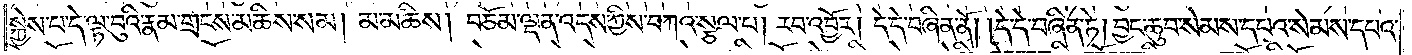སྐྱེས་པ་དེ་ལྟ་བུའི་རྣམ་གྲངས་མཆིས་སམ། མ་མཆིས། བཅོམ་ལྡན་འདས་ཀྱིས་བཀའ་སྩལ་བ། རབ་འབྱོར། དེ་དེ་བཞིན་ནོ། །དེ་དེ་བཞིན་ཏེ། བྱང་ཆུབ་སེམས་དཔའ་སེམས་དཔའ་
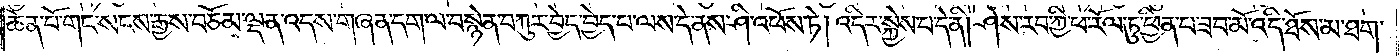ཆེན་པོ་གང་སངས་རྒྱས་བཅོམ་ལྡན་འདས་གཞན་དག་ལ་བསྙེན་བཀུར་བྱེད་བྱེད་པ་ལས་དེ་ནས་ཤི་འཕོས་ཏེ། འདིར་སྐྱེས་པ་དེ་ནི། ཤེས་རབ་ཀྱི་ཕ་རོལ་ཏུ་ཕྱིན་པ་ཟབ་མོ་འདི་ཐོས་མ་ཐག་
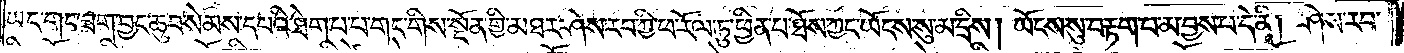ཡང་གང་ཟག་བྱང་ཆུབ་སེམས་དཔའི་ཐེག་པ་པ་གང་གིས་སྔོན་གྱི་མཐར་ཤེས་རབ་ཀྱི་ཕ་རོལ་ཏུ་ཕྱིན་པ་ཐོས་ཀྱང་ཡོངས་སུ་མ་དྲིས། ཡོངས་སུ་བརྟག་པ་མ་བྱས་པ་དེ་ནི། ཤེས་རབ་
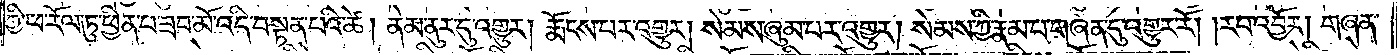ཀྱི་ཕ་རོལ་ཏུ་ཕྱིན་པ་ཟབ་མོ་འདི་བསྟན་པའི་ཚེ། ནེམ་ནུར་དུ་འགྱུར། རྨོངས་པར་འགྱུར། སེམས་ཞུམ་པར་འགྱུར། སེམས་ཀྱི་རྣམ་པ་གཞན་དུ་འགྱུར་རོ། །རབ་འབྱོར། གཞན་
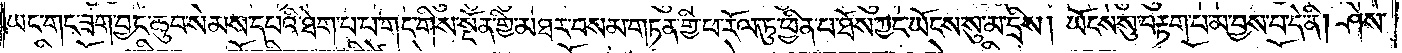ཡང་གང་ཟག་བྱང་ཆུབ་སེམས་དཔའ་ཐེག་པ་པ་གང་གིས་སྔོན་གྱི་མཐར་བསམ་གཏན་གྱི་ཕ་རོལ་ཏུ་ཕྱིན་པ་ཐོས་ཀྱང་ཡོངས་སུ་མ་དྲིས། ཡོངས་སུ་བརྟག་པ་མ་བྱེས་པ་དེ་ནི། ཤེས་
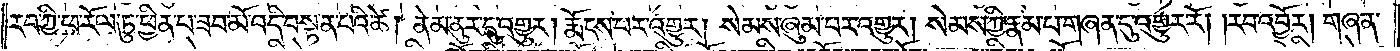རབ་ཀྱི་ཕ་རོལ་ཏུ་ཕྱིན་པ་ཟབ་མོ་འདི་བསྟན་པའི་ཚེ། ནེམ་ནུར་དུ་འགྱུར། རྨོངས་པར་འགྱུར། སེམས་ཞུམ་པར་འགྱུར། སེམས་ཀྱི་རྣམ་པ་གཞན་དུ་འགྱུར་རོ། །རབ་འབྱོར། གཞན་
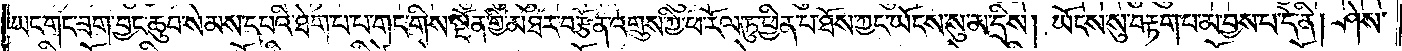ཡང་གང་ཟག་བྱང་ཆུབ་སེམས་དཔའ་ཐེག་པ་པ་གང་གིས་སྔོན་གྱི་མཐར་བརྩོན་འགྲུས་ཀྱི་ཕ་རོལ་ཏུ་ཕྱིན་པ་ཐོས་ཀྱང་ཡོངས་སུ་མ་དྲིས། ཡོངས་སུ་བརྟག་པ་མ་བྱས་པ་དེ་ནི། ཤེས་
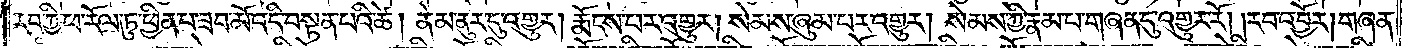རབ་ཀྱི་ཕ་རོལ་ཏུ་ཕྱིན་པ་ཟབ་མོ་འདི་བསྟན་བའི་ཚེ། ནེམ་ནུར་དུ་འགྱུར། རྨོངས་པར་འགྱུར། སེམས་ཞུམ་པར་འགྱུར། སེམས་ཀྱི་རྣམ་པར་གཞན་དུ་འགྱུར་རོ། །རབ་འབྱོར། གཞན་
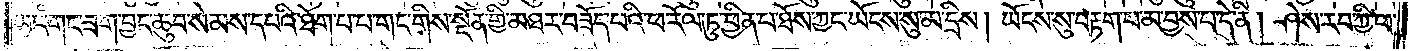ཡང་གང་ཟག་བྱང་ཆུབ་སེམས་དཔའི་ཐེག་པ་པ་གང་གིས་སྔོན་གྱི་མཐར་བཟོད་པའི་ཕ་རོལ་ཏུ་ཕྱིན་པ་ཐོས་ཀྱང་ཡོངས་སུ་མ་དྲིས། ཡོངས་སུ་བརྟག་པ་མ་བྱས་པ་དེ་ནི། ཤེས་རབ་ཀྱི་ཕ་
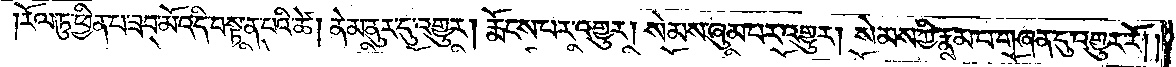རོལ་ཏུ་ཕྱིན་པ་ཟབ་མོ་འདི་བསྟན་པའི་ཚེ། ནེམ་ནུར་དུ་འགྱུར། རྨོངས་པར་འགྱུར། སེམས་ཞུམ་པར་འགྱུར། སེམས་ཀྱི་རྣམ་པ་གཞན་དུ་འགྱུར་རོ། །
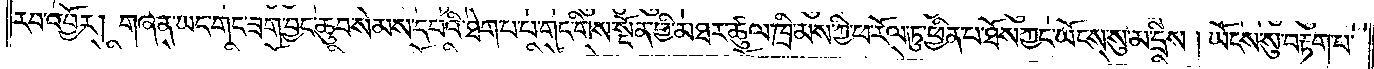རབ་འབྱོར། གཞན་ཡང་གང་ཟག་བྱང་ཆུབ་སེམས་དཔའི་ཐེག་པ་པ་གང་གིས་སྔོན་གྱི་མཐར་ཚུལ་ཁྲིམས་ཀྱི་ཕ་རོལ་ཏུ་ཕྱིན་པ་ཐོས་ཀྱང་ཡོངས་སུ་མ་དྲིས། ཡོངས་སུ་བརྟག་པ་
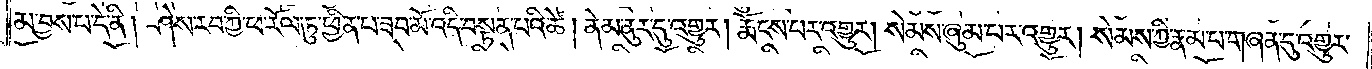མ་བྱས་པ་དེ་ནི། ཤེས་རབ་ཀྱི་ཕ་རོལ་ཏུ་ཕྱིན་པ་ཟབ་མོ་འདི་བསྟན་པའི་ཚེ། ནེམ་ནུར་དུ་འགྱུར། རྨོངས་པར་འགྱུར། སེམས་ཞུམ་པར་འགྱུར། སེམས་ཀྱི་རྣམ་པ་གཞན་དུ་འགྱུར་
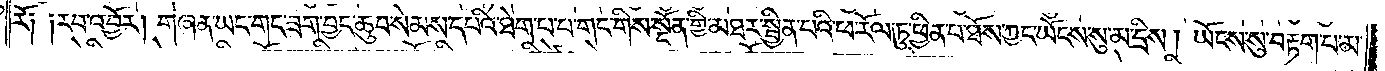རོ། །རབ་འབྱོར། གཞན་ཡང་གང་ཟག་བྱང་ཆུབ་སེམས་དཔའི་ཐེག་པ་པ་གང་གིས་སྔོན་གྱི་མཐར་སྦྱིན་པའི་ཕ་རོལ་ཏུ་ཕྱིན་པ་ཐོས་ཀྱང་ཡོངས་སུ་མ་དྲིས། ཡོངས་སུ་བརྟག་པ་མ་
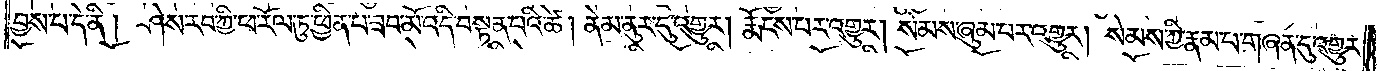བྱས་པ་དེ་ནི། ཤེས་རབ་ཀྱི་ཕ་རོལ་ཏུ་ཕྱིན་པ་ཟབ་མོ་འདི་བསྟན་པའི་ཚེ། ནེམ་ནུར་དུ་འགྱུར། རྨོངས་པར་འགྱུར། སེམས་ཞུམ་པར་འགྱུར། སེམས་ཀྱི་རྣམ་པ་གཞན་དུ་འགྱུར་
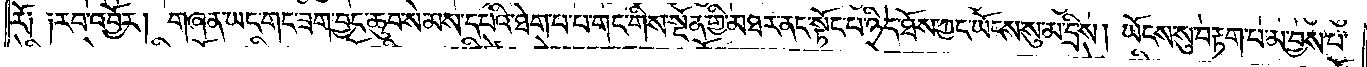རོ། །རབ་འབྱོར། གཞན་ཡང་གང་ཟག་བྱང་ཆུབ་སེམས་དཔའི་ཐེག་པ་པ་གང་གིས་སྔོན་གྱི་མཐར་ནང་སྟོང་པ་ཉིད་ཐོས་ཀྱང་ཡོངས་སུ་མ་དྲིས། ཡོངས་སུ་བརྟག་པ་མ་བྱས་པ་
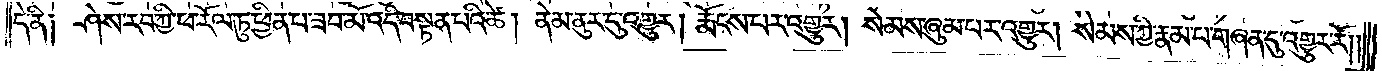དེ་ནི། ཤེས་རབ་ཀྱི་ཕ་རོལ་ཏུ་ཕྱིན་པ་ཟབ་མོ་འདི་བསྟན་པའི་ཚེ། ནེམ་ནུར་དུ་འགྱུར། རྨོངས་པར་འགྱུར། སེམས་ཞུམ་པར་འགྱུར། སེམས་ཀྱི་རྣམ་པ་གཞན་དུ་འགྱུར་རོ། །
